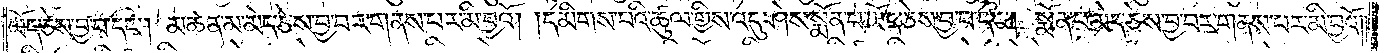ཡོད་ཅེས་བྱ་བ་དང༌། མཚན་མ་མེད་ཅེས་བྱ་བར་གནས་པར་མི་བྱའོ། །དམིགས་པའི་ཚུལ་གྱིས་འདུ་ཤེས་སྨོན་པ་ཡོད་ཅེས་བྱ་བ་དང༌། སྨོན་པ་མེད་ཅེས་བྱ་བར་གནས་པར་མི་བྱའོ། །
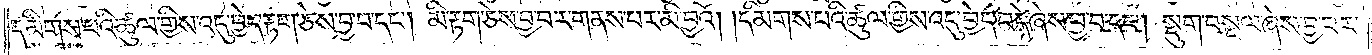དམིགས་པའི་ཚུལ་གྱིས་འདུ་བྱེད་རྟག་ཅེས་བྱ་བ་དང༌། མི་རྟག་ཅེས་བྱ་བར་གནས་པར་མི་བྱའོ། །དམིགས་པའི་ཚུལ་གྱིས་འདུ་བྱེད་བདེ་ཞེས་བྱ་བ་དང༌། སྡུག་བསྔལ་ཞེས་བྱ་བར་
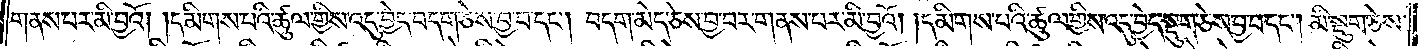གནས་པར་མི་བྱའོ། །དམིགས་པའི་ཚུལ་གྱིས་འདུ་བྱེད་བདག་ཅེས་བྱ་བ་དང༌། བདག་མེད་ཅེས་བྱ་བར་གནས་པར་མི་བྱའོ། །དམིགས་པའི་ཚུལ་གྱིས་འདུ་བྱེད་སྡུག་ཅེས་བྱ་བ་དང༌། མི་སྡུག་ཅེས་
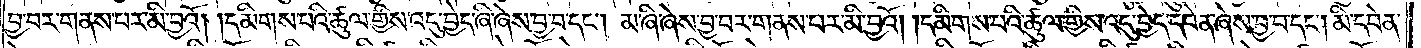བྱ་བར་གནས་པར་མི་བྱའོ། །དམིགས་པའི་ཚུལ་གྱིས་འདུ་བྱེད་ཞི་ཞེས་བྱ་བ་དང༌། མ་ཞི་ཞེས་བྱ་བར་གནས་པར་མི་བྱའོ། །དམིགས་པའི་ཚུལ་གྱིས་འདུ་བྱེད་དབེན་ཞེས་བྱ་བ་དང༌། མི་དབེན་
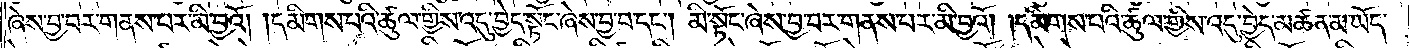ཞེས་བྱ་བར་གནས་པར་མི་བྱའོ། །དམིགས་པའི་ཚུལ་གྱིས་འདུ་བྱེད་སྟོང་ཞེས་བྱ་བ་དང༌། མི་སྟོང་ཞེས་བྱ་བར་གནས་པར་མི་བྱའོ། །དམིགས་པའི་ཚུལ་གྱིས་འདུ་བྱེད་མཚན་མ་ཡོད་
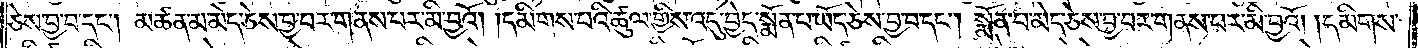ཅེས་བྱ་བ་དང༌། མཚན་མ་མེད་ཅེས་བྱ་བར་གནས་པར་མི་བྱའོ། །དམིགས་པའི་ཚུལ་གྱིས་འདུ་བྱེད་སྨོན་པ་ཡོད་ཅེས་བྱ་བ་དང༌། སྨོན་པ་མེད་ཅེས་བྱ་བར་གནས་པར་མི་བྱའོ། །དམིགས་
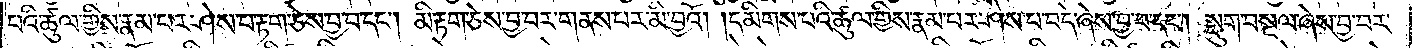པའི་ཚུལ་གྱིས་རྣམ་པར་ཤེས་པ་རྟག་ཅེས་བྱ་བ་དང༌། མི་རྟག་ཅེས་བྱ་བར་གནས་པར་མི་བྱའོ། །དམིགས་པའི་ཚུལ་གྱིས་རྣམ་པར་ཤེས་པ་བདེ་ཞེས་བྱ་བ་དང༌། སྡུག་བསྔལ་ཞེས་བྱ་བར་
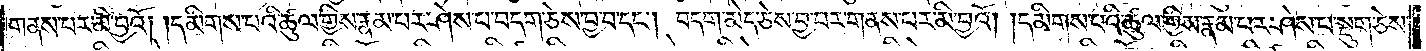གནས་པར་མི་བྱའོ། །དམིགས་པའི་ཚུལ་གྱིས་རྣམ་པར་ཤེས་པ་བདག་ཅེས་བྱ་བ་དང༌། བདག་མེད་ཅེས་བྱ་བར་གནས་པར་མི་བྱའོ། །དམིགས་པའི་ཚུལ་གྱིས་རྣམ་པར་ཤེས་པ་སྡུག་ཅེས་
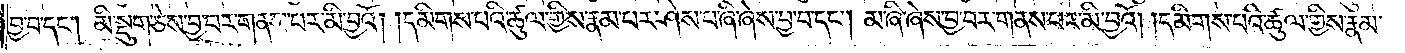བྱ་བ་དང༌། མི་སྡུག་ཅེས་བྱ་བར་གནས་པར་མི་བྱའོ། །དམིགས་པའི་ཚུལ་གྱིས་རྣམ་པར་ཤེས་པ་ཞི་ཞེས་བྱ་བ་དང༌། མ་ཞི་ཞེས་བྱ་བར་གནས་པར་མི་བྱའོ། །དམིགས་པའི་ཚུལ་གྱིས་རྣམ་
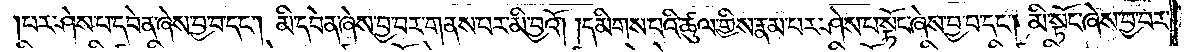པར་ཤེས་པ་དབེན་ཞེས་བྱ་བ་དང༌། མི་དབེན་ཞེས་བྱ་བར་གནས་པར་མི་བྱའོ། །དམིགས་པའི་ཚུལ་གྱིས་རྣམ་པར་ཤེས་པ་སྟོང་ཞེས་བྱ་བ་དང༌། མི་སྟོང་ཞེས་བྱ་བར་
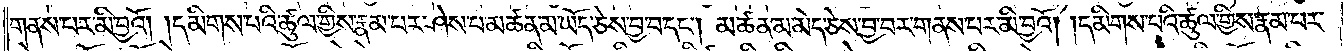གནས་པར་མི་བྱའོ། །དམིགས་པའི་ཚུལ་གྱིས་རྣམ་པར་ཤེས་པ་མཚན་མ་ཡོད་ཅེས་བྱ་བ་དང༌། མཚན་མ་མེད་ཅེས་བྱ་བར་གནས་པར་མི་བྱའོ། །དམིགས་པའི་ཚུལ་གྱིས་རྣམ་པར་
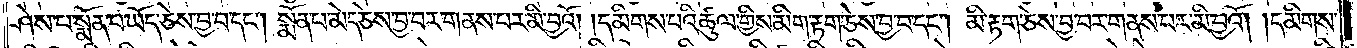ཤེས་པ་སྨོན་པ་ཡོད་ཅེས་བྱ་བ་དང༌། སྨོན་པ་མེད་ཅེས་བྱ་བར་གནས་པར་མི་བྱའོ། །དམིགས་པའི་ཚུལ་གྱིས་མིག་རྟག་ཅེས་བྱ་བ་དང༌། མི་རྟག་ཅེས་བྱ་བར་གནས་པར་མི་བྱའོ། །དམིགས་
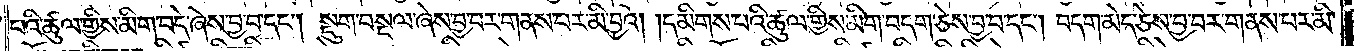པའི་ཚུལ་གྱིས་མིག་བདེ་ཞེས་བྱ་བ་དང༌། སྡུག་བསྔལ་ཞེས་བྱ་བར་གནས་པར་མི་བྱའོ། །དམིགས་པའི་ཚུལ་གྱིས་མིག་བདག་ཅེས་བྱ་བ་དང༌། བདག་མེད་ཅེས་བྱ་བར་གནས་པར་མི་
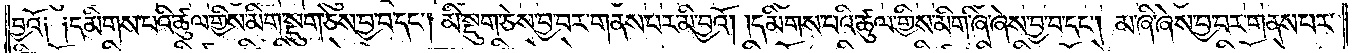བྱའོ༏ ༏དམིགས་པའི་ཚུལ་གྱིས་མིག་སྡུག་ཅེས་བྱ་བ་དང༌། མི་སྡུག་ཅེས་བྱ་བར་གནས་པར་མི་བྱའོ། །དམིགས་པའི་ཚུལ་གྱིས་མིག་ཞི་ཞེས་བྱ་བ་དང༌། མ་ཞི་ཞེས་བྱ་བར་གནས་པར་
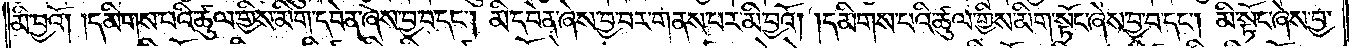མི་བྱའོ། །དམིགས་པའི་ཚུལ་གྱིས་མིག་དབེན་ཞེས་བྱ་བ་དང༌། མི་དབེན་ཞེས་བྱ་བར་གནས་པར་མི་བྱའོ། །དམིགས་པའི་ཚུལ་གྱིས་མིག་སྟོང་ཞེས་བྱ་བ་དང༌། མི་སྟོང་ཞེས་བྱ་
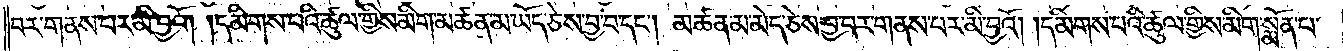བར་གནས་པར་མི་བྱའོ། །དམིགས་པའི་ཚུལ་གྱིས་མིག་མཚན་མ་ཡོད་ཅེས་བྱ་བ་དང༌། མཚན་མ་མེད་ཅེས་བྱ་བར་གནས་པར་མི་བྱའོ། །དམིགས་པའི་ཚུལ་གྱིས་མིག་སྨོན་པ་
